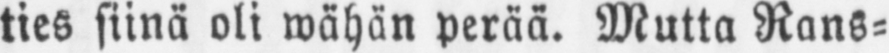ties siinä oli wähän perää. Mutta Rans-
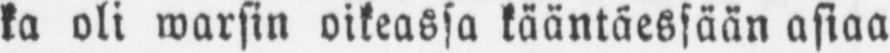ka oli warsin oikeassa kääntäessään asiaa
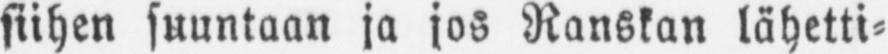siihen suuntaan ja jos Ranskan lähetti-
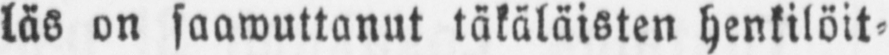läs on saawuttanut täkäläisten henkilöit-
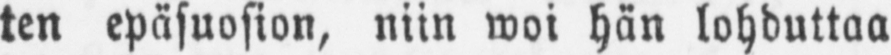ten epäsuosion, niin woi hän lohduttaa
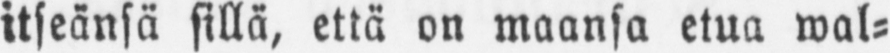itseänsä sillä, että on maansa etua wal-
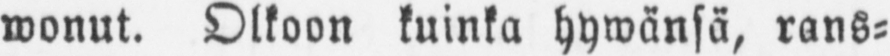wonut. Olkoon kuinka hywänsä, rans-
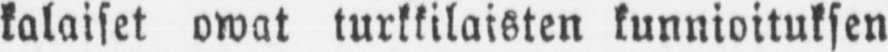kalaiset owat turkkilaisten kunnioituksen
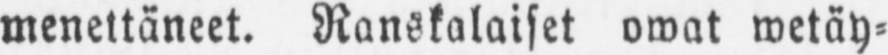menettäneet. Ranskalaiset owat wetäy-
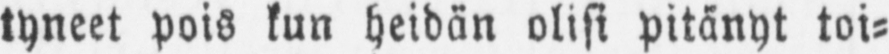tyneet pois kun heidän olisi pitänyt toi-
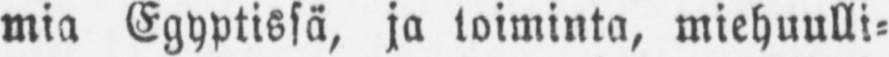mia Egyptissä, ja toiminta, miehuulli-
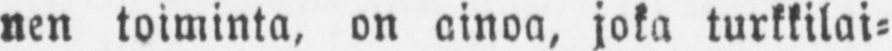nen toiminta, on ainoa, joka turkkilai-
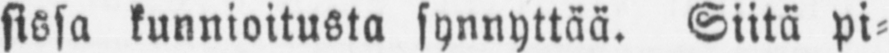sissa kunnioitusta synnyttää. Siitä pi-
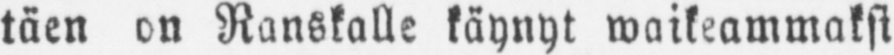täen on Ranskalle käynyt waikeammaksi
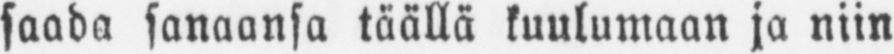saada sanaansa täällä kuulumaan ja niin
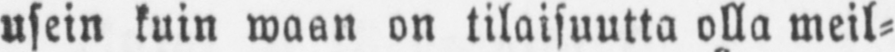usein kuin waan on tilaisuutta olla meil-
